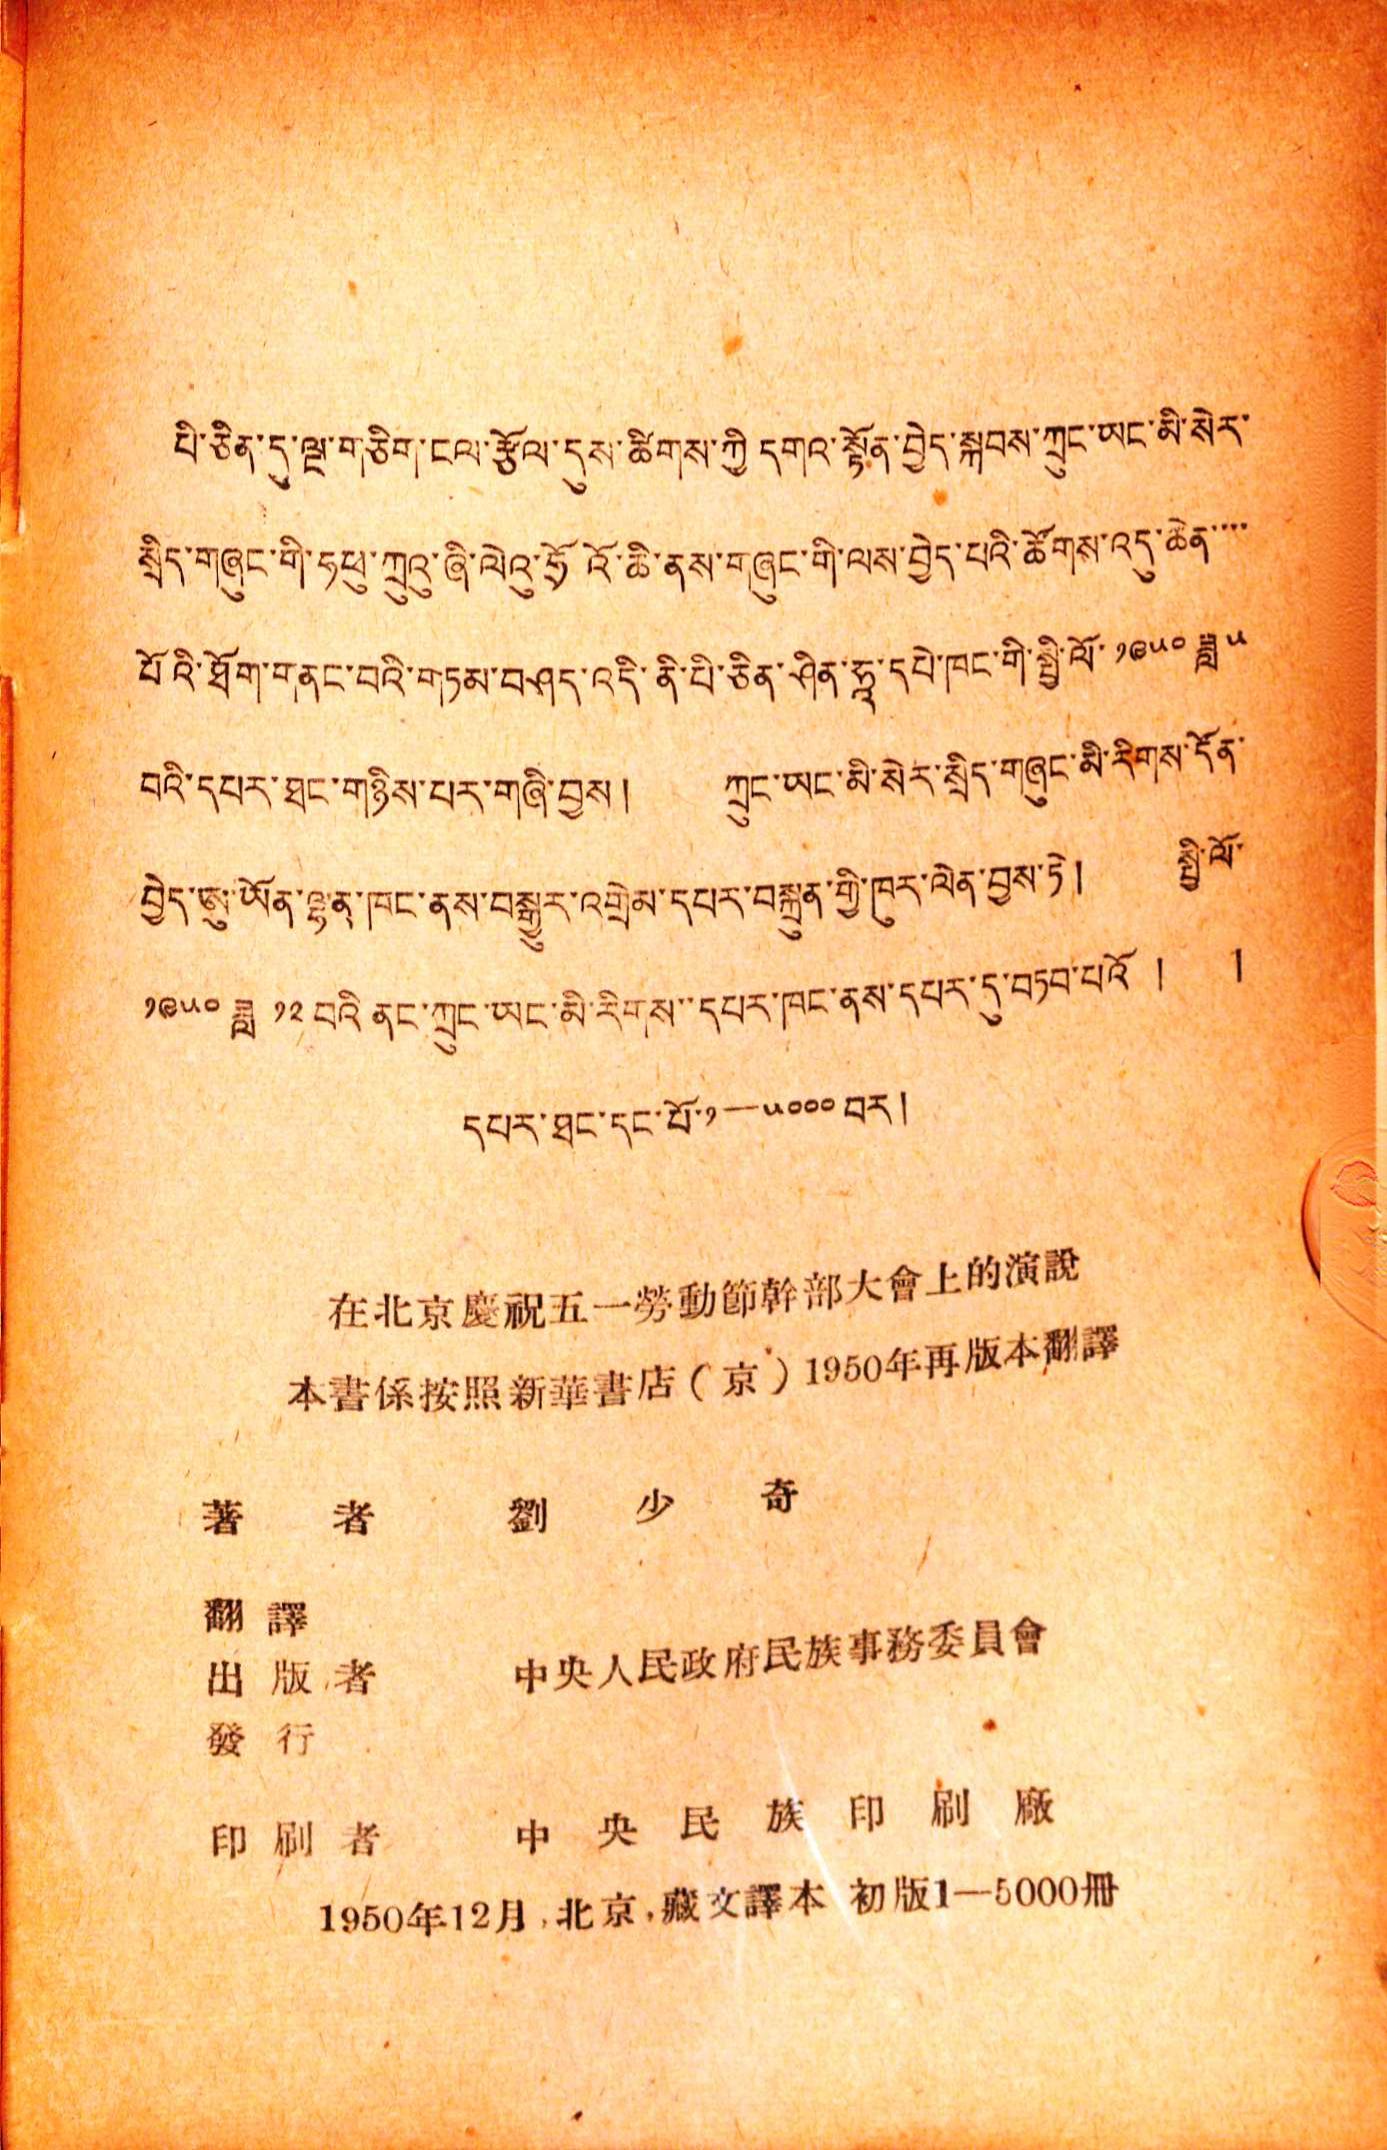པི་ཅིན་དུ་ལྔ་གཅིག་ངལ་རྩོལ་དུས་ཚིགས་ཀྱི དགའ་སྟོན་བྱེད་སྐབས་ཀྲུང་ཡང་མི་སེར་
སྲིད་གཞུང་གི་ཧཕུ་ཀྲུའུ་ཞི་ལེའུ་ཧྲོའོ་ཆི་ནས་གཞུང་གི་ལས་བྱེད་པའི་ཚོགས་འདུ་ཆེན་་་་
པོའི་ཐོག་གནང་བའི་གཏམ་བཤད་འདི་ནི་པི་ཅིན་ཤིན་ཧཱ་དཔེ་ཁང་གི་སྤྱི་ལོ་ ༡༩༥༠ ཟླ་ ༥
བའི་དཔར་ཐང་གཉིས་པར་གཞི་བྱས། ཀྲུང་ཡང་མི་སེར་སྲིད་གཞུང་མི་རིགས་དོན་
བྱེད་ཨུ་ཡོན་ལྷན་ཁང་ནས་བསྒྱུར་འགྲེམ་དཔར་བསྐྲུན་གྱི་ཁུར་ལེན་བྱས་ཏེ། སྤྱི་ལོ་
༡༩༥༠ ཟླ ༡༢ བའི ནང་ཀྲུང་ཡང་མི་རིགས་་དཔར་ཁང་ནས་དཔར་དུ་བཏབ་པའོ ། །
དཔར་ཐང་དང་པོ་༡—༥༠༠༠ བར།
在北京慶祝五一勞動節幹部大會上的演說
本書係按照新華書店（京）1950年再版本翻譯
著 者 劉 少 奇
翻 譯
出 版 者 中央人民政府民族事務委員會
發 行
印 刷 者 中 央 民 族 印 刷 廠
1950年12月，北京，藏文譯本 初版1—5000冊
